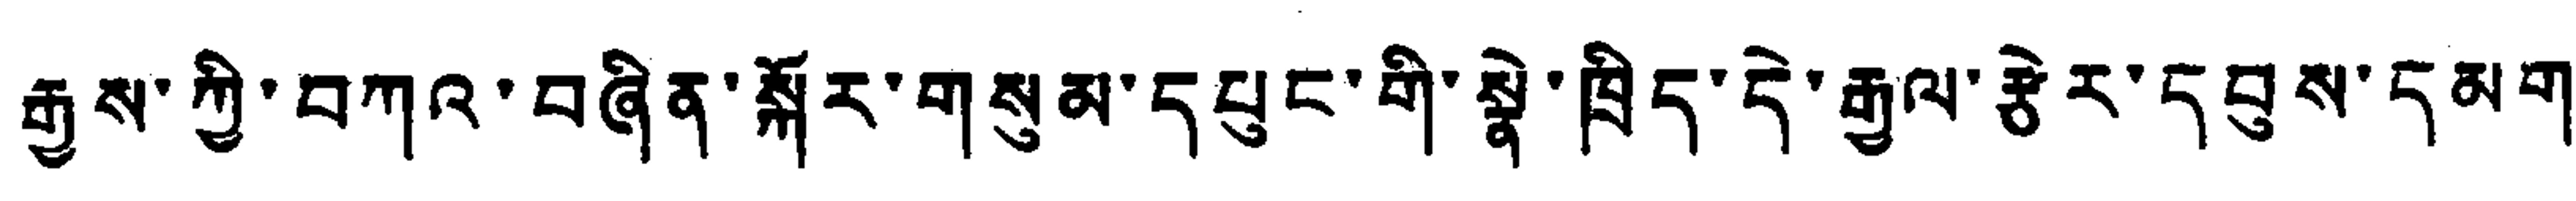རྒྱས་ཀྱི་བཀའ་བཞིན་སྐོར་གསུམ་དཔུང་གི་སྣེ་ཁྲིད་དེ་རྒྱལ་རྩེར་དབུས་དམག་
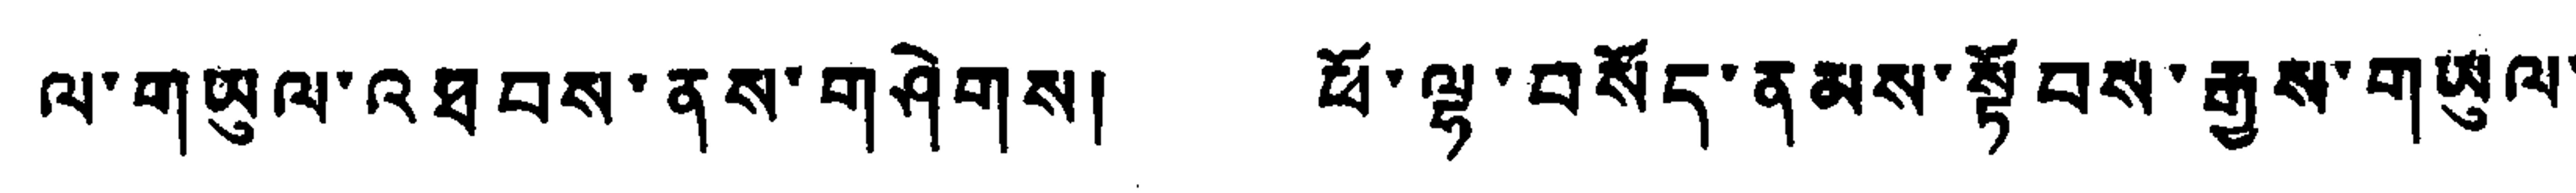ལ་གཡུལ་འཐབས་ནས་གཤེགས། ཕོ་ལྷ་བསོད་ནམས་སྟོབས་རྒྱས་གཡུལ་
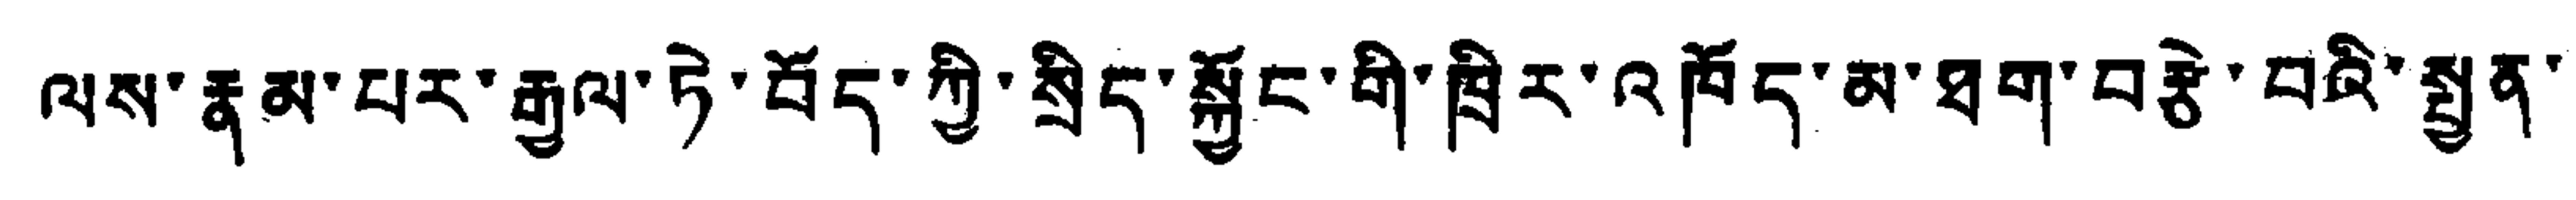ལས་རྣམ་པར་རྒྱལ་ཏེ་བོད་ཀྱི་སྲིད་སྐྱོང་གི་ཁྲིར་འཁོད་མ་ཐག་བརྩེ་བའི་སྤྱན་
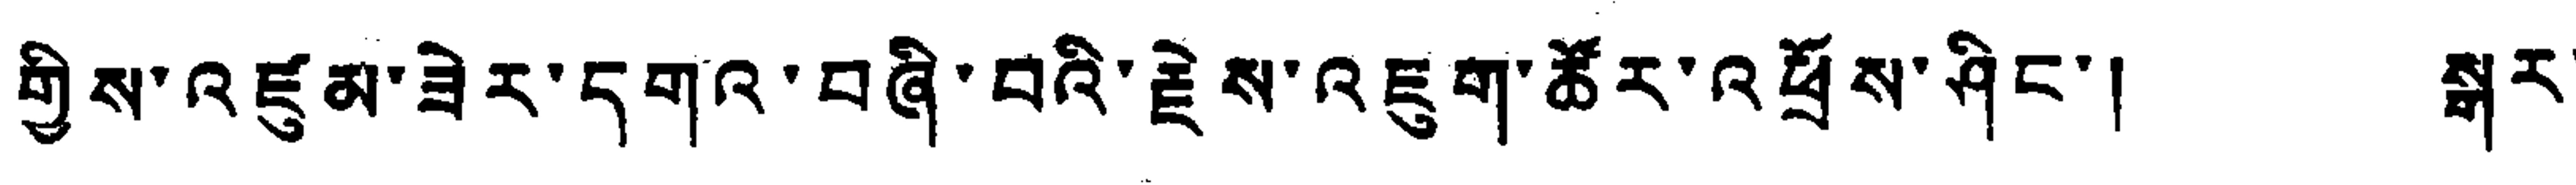གྱིས་འཛུམ་ཟེར་དགའ་བཞི་བའི་རྗེས་འཇུག་ཚོར་འཕྲོས་ཤིང་། སྒར་
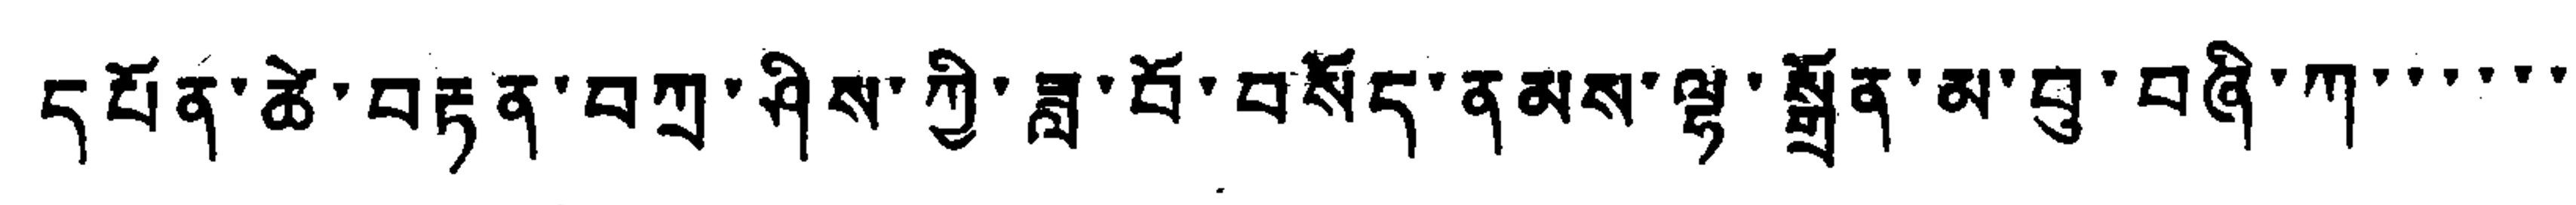དཔོན་ཚེ་བརྟན་བཀྲ་ཤིས་ཀྱི་ཟླ་བོ་བསོད་ནྣམས་ལྷ་སྒྲོན་མ་བུ་བཞི་ཀ་་་་་་
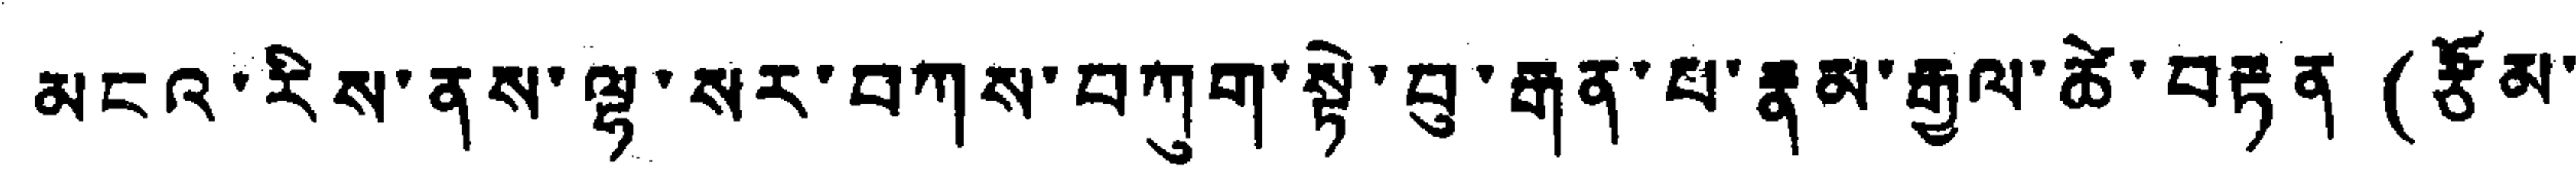མངའ་རིས་ནས་ལྷ་སར་བཀས་བཀུག་སྟེ་བུ་རྒན་པ་རྣམ་རྒྱལ་ཚེ་བརྟན (རྩོམ་
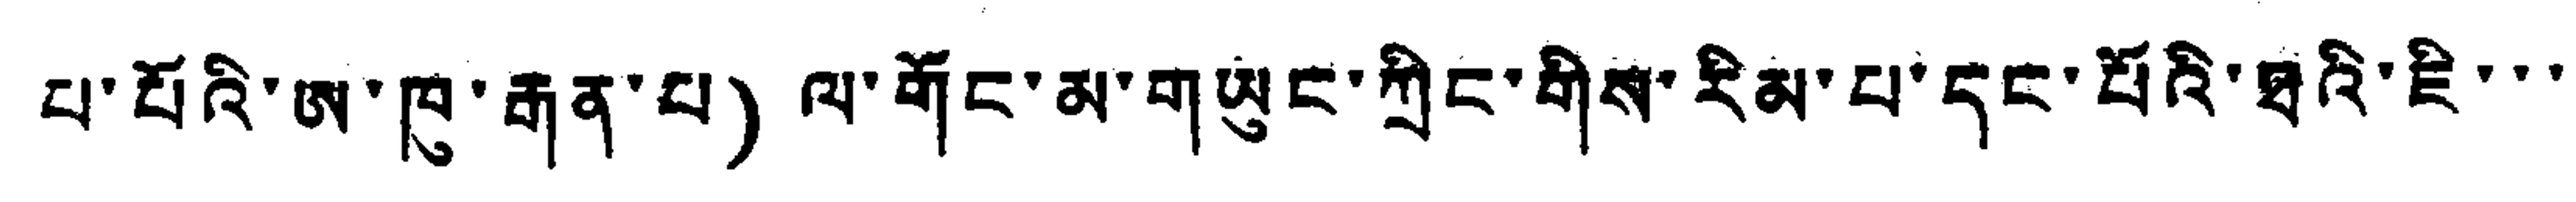པ་པོའི་ཨ་ཁུ་རྒན་པ) ལ་གོང་མ་གཡུང་ཀྲིང་གིས་རིམ་པ་དང་པོའི་ཐའི་ཇི་་་
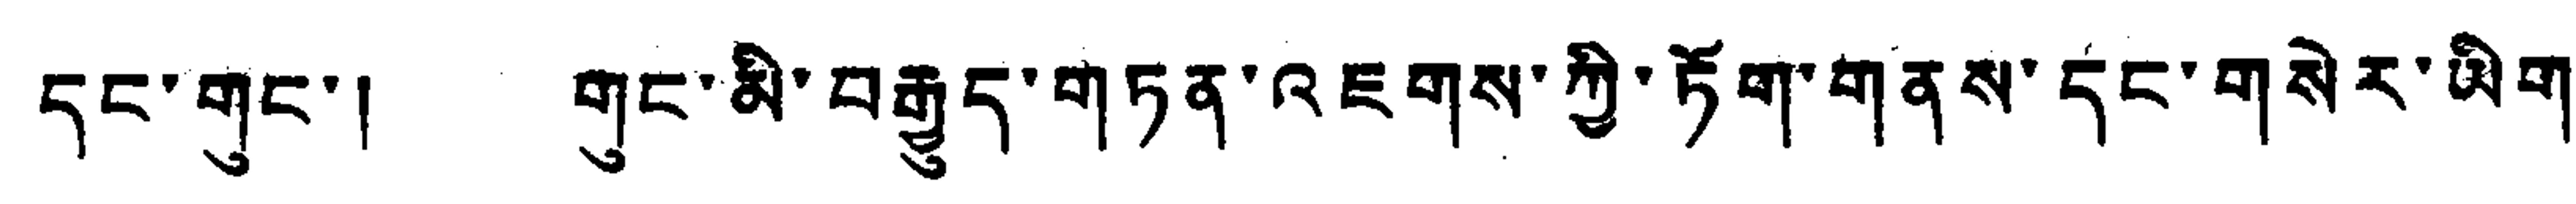དང་གུང་། གུང་མི་བརྒྱུད་གཏན་འཇགས་ཀྱི་ཏོག་གནས་དང་གསེར་ཡིག་
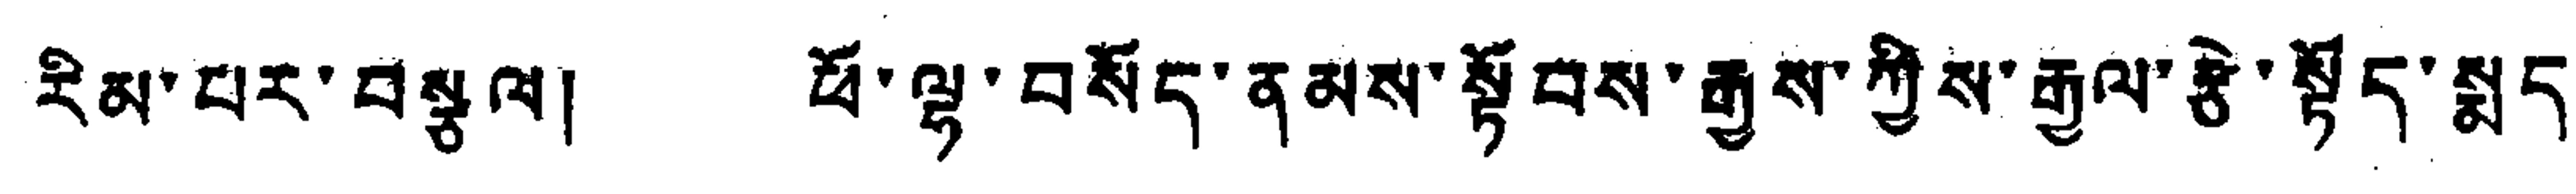རིམ་པར་བསྩལ། ཕོ་ལྷ་བསོད་ནམས་སྟོབས་རྒྱས་ཀྱིས་རྒྱལ་རྩེ་སྟོད་སྨད་
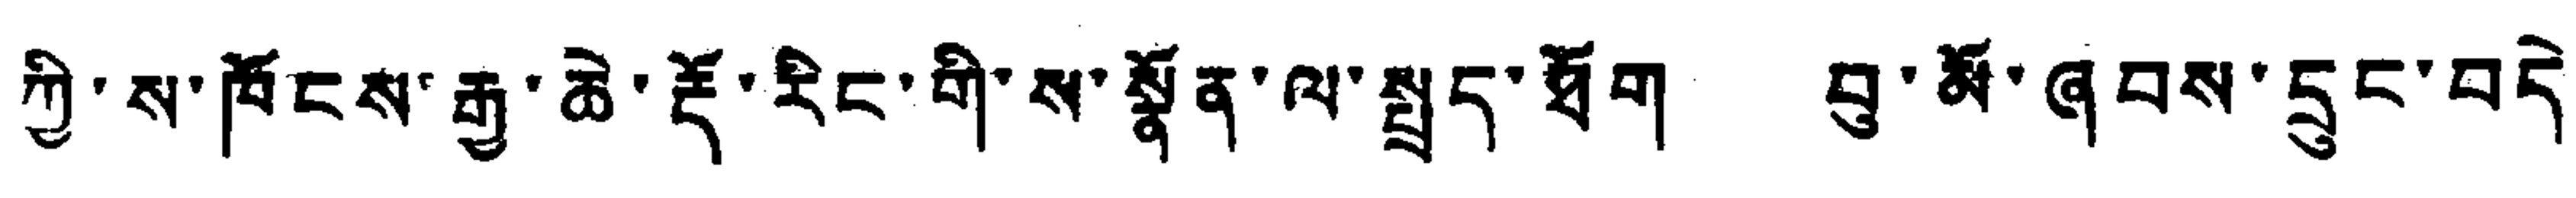ཀྱི་ས་ཁོངས་རྒྱ་ཆེ་རྡོ་རིང་གི་ས་སྣོན་ལ་སྤྱད་ཐོག བུ་མོ་ཞབས་དྲུང་བདེ་
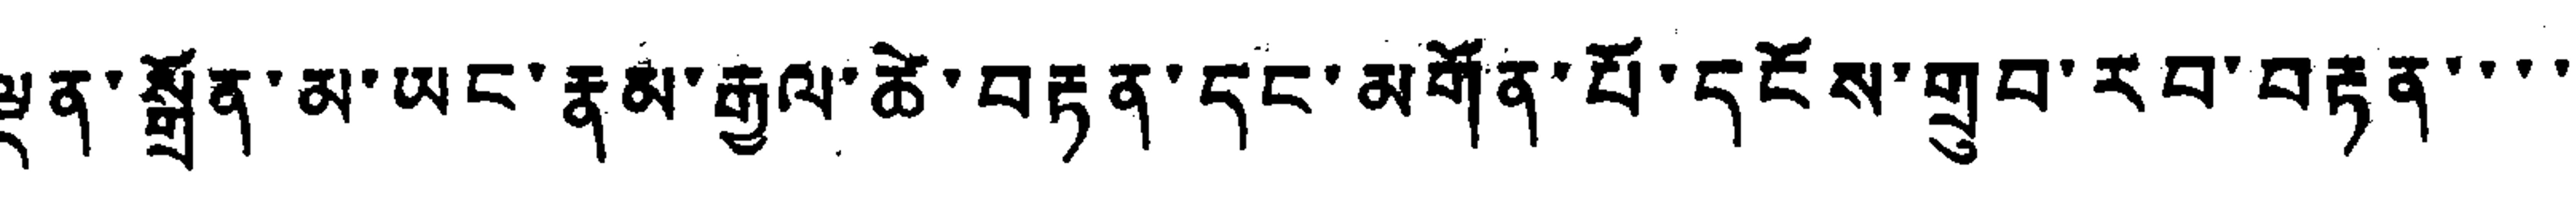ལྡན་སྒྲོན་མ་ཡང་རྣམ་རྒྱལ་ཚེ་བརྟན་དང་མགོན་པོ་དངོས་གྲུབ་རབ་བརྟན་་་་
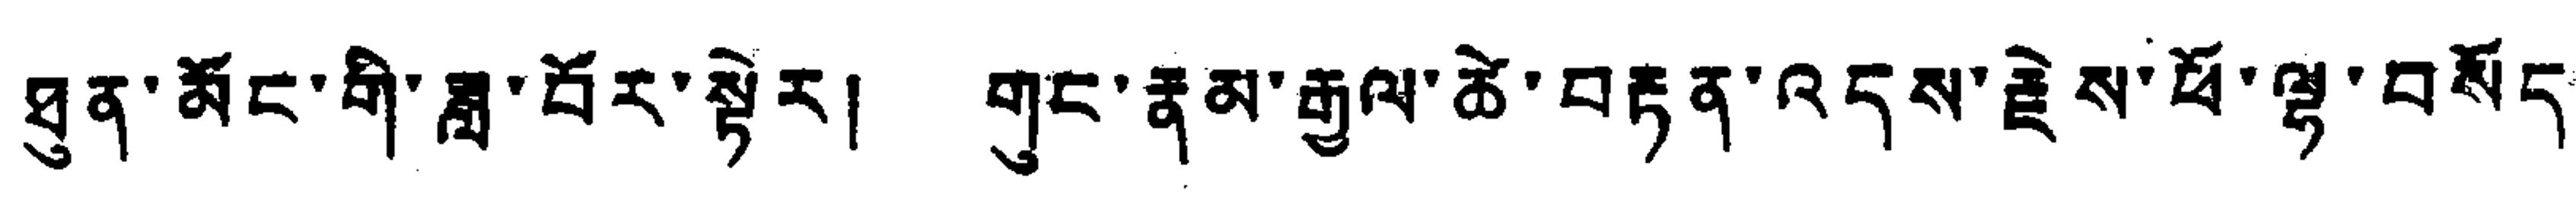ཐུན་མོང་གི་ཟླ་བོར་སྟེར། གུང་རྣམ་རྒྱལ་ཚེ་བརྟན་འདས་རྗེས་ཕོ་ལྷ་བསོད་
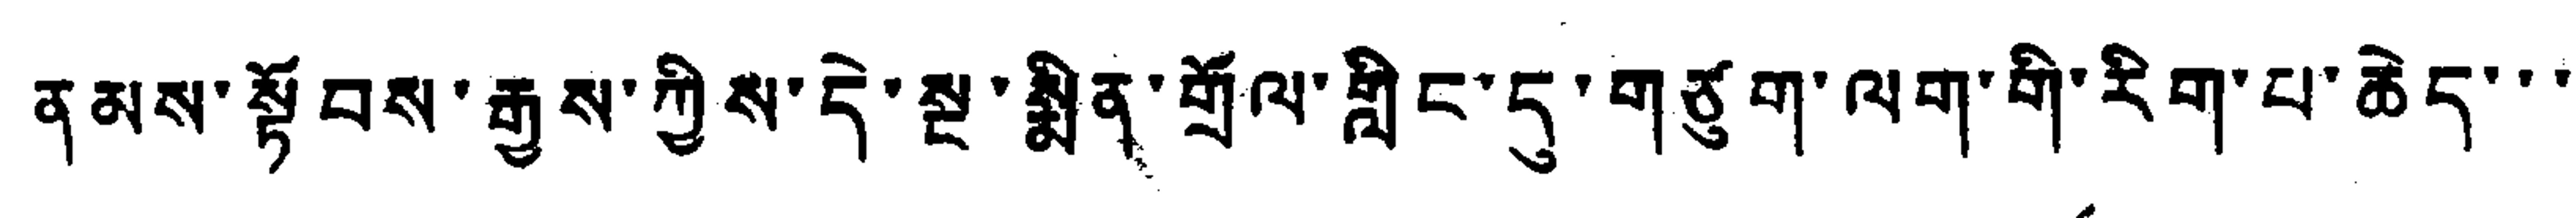ནམས་སྟོབས་རྒྱས་ཀྱིས་དེ་སྔ་སྨིན་གྲོལ་གླིང་དུ་གཙུག་ལག་གི་རིག་པ་ཆེད་་་
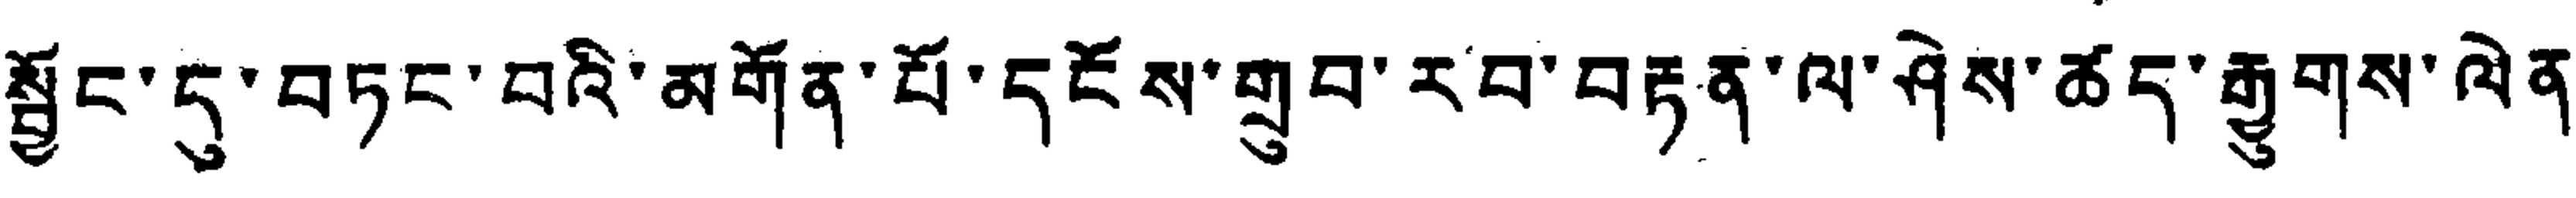སྦྱོང་དུ་བཏང་བའི་མགོན་པོ་དངོས་གུབ་རབ་བརྟན་ལ་ཤེས་ཚད་རྒྱུགས་ལེན་
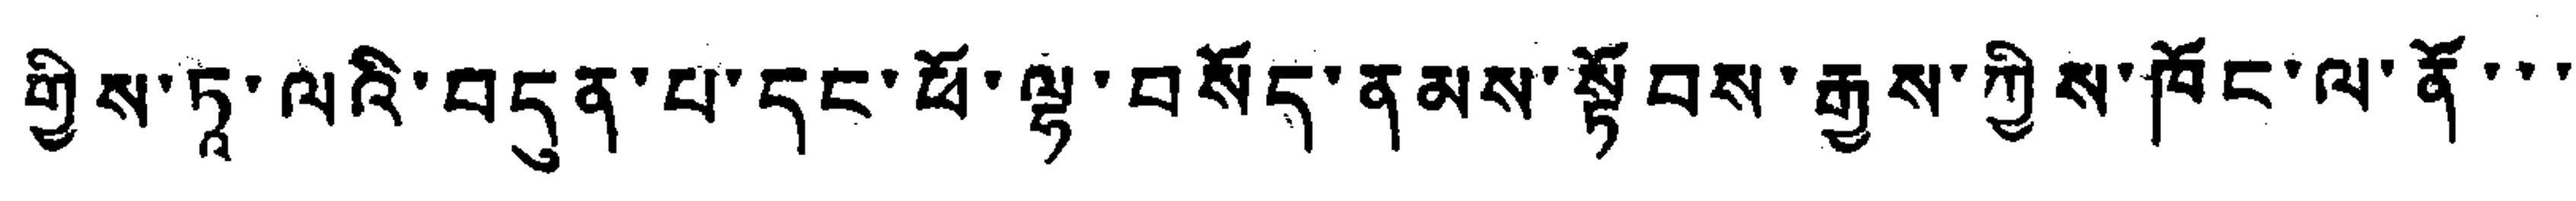གྱིས་ཏཱ་ལའི་བདུན་པ་དང་ཕོ་ལྷ་བསོད་ནམས་སྟོབས་རྒྱས་ཀྱིས་ཁོང་ལ་ནོ་་་
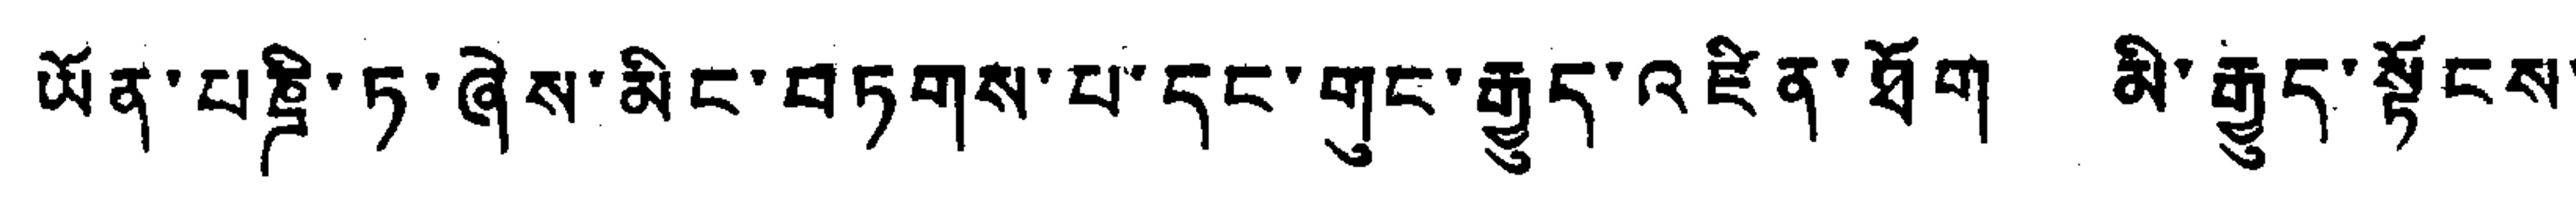ཡོན་པཎྜི་ཏ་ཞེས་མིང་བཏགས་པ་དང་གུང་རྒྱུད་འཛིན་ཐོག མི་རྒྱུད་སྟོངས་
